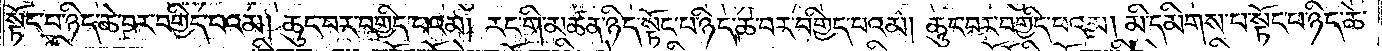སྟོང་པ་ཉིད་ཆེ་བར་བགྱིད་པའམ། ཆུང་བར་བགྱིད་པའམ། རང་གི་མཚན་ཉིད་སྟོང་པ་ཉིད་ཆེ་བར་བགྱིད་པའམ། ཆུང་བར་བགྱིད་པའམ། མི་དམིགས་པ་སྟོང་པ་ཉིད་ཆེ་
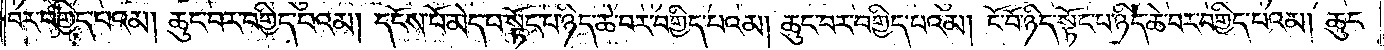བར་བགྱིད་པའམ། ཆུང་བར་བགྱིད་པའམ། དངོས་པོ་མེད་པ་སྟོང་པ་ཉིད་ཆེ་བར་བགྱིད་པའམ། ཆུང་བར་བགྱིད་པའམ། ངོ་བོ་ཉིད་སྟོང་པ་ཉིད་ཆེ་བར་བགྱིད་པའམ། ཆུང་
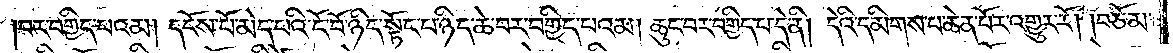བར་བགྱིད་པའམ། དངོས་པོ་མེད་པའི་ངོ་བོ་ཉིད་སྟོང་པ་ཉིད་ཆེ་བར་བགྱིད་པའམ། ཆུང་བར་བགྱིད་པ་དེ་ནི། དེའི་དམིགས་པ་ཆེན་པོར་འགྱུར་རོ། །བཅོམ་
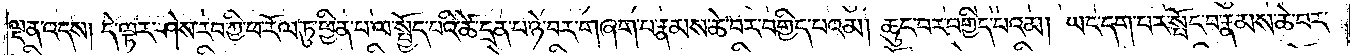ལྡན་འདས། དེ་ལྟར་ཤེས་རབ་ཀྱི་ཕ་རོལ་ཏུ་ཕྱིན་པ་ལ་སྤྱོད་པའི་ཚེ་དྲན་པ་ཉེ་བར་གཞག་པ་རྣམས་ཆེ་བར་བགྱིད་པའམ། ཆུང་བར་བགྱིད་པའམ། ཡང་དག་པར་སྤོང་བ་རྣམས་ཆེ་བར་
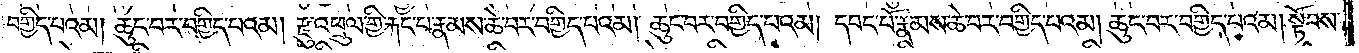བགྱིད་པའམ། ཆུང་བར་བགྱིད་པའམ། རྫུ་འཕྲུལ་གྱི་རྐང་པ་རྣམས་ཆེ་བར་བགྱིད་པའམ། ཆུང་བར་བགྱིད་པའམ། དབང་པོ་རྣམས་ཆེ་བར་བགྱིད་པའམ། ཆུང་བར་བགྱིད་པའམ། སྟོབས་
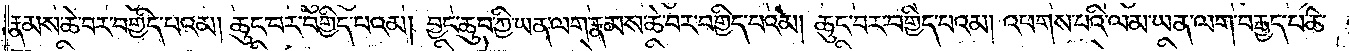རྣམས་ཆེ་བར་བགྱིད་པའམ། ཆུང་བར་བགྱིད་པའམ། བྱང་ཆུབ་ཀྱི་ཡན་ལག་རྣམས་ཆེ་བར་བགྱིད་པའམ། ཆུང་བར་བགྱིད་པའམ། འཕགས་པའི་ལམ་ཡན་ལག་བརྒྱད་པ་ཆེ་
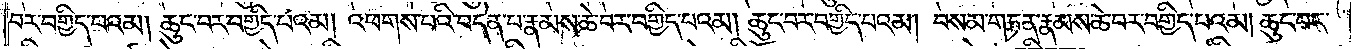བར་བགྱིད་པའམ། ཆུང་བར་བགྱིད་པའམ། འཕགས་པའི་བདེན་པ་རྣམས་ཆེ་བར་བགྱིད་པའམ། ཆུང་བར་བགྱིད་པའམ། བསམ་གཏན་རྣམས་ཆེ་བར་བགྱིད་པའམ། ཆུང་བར་
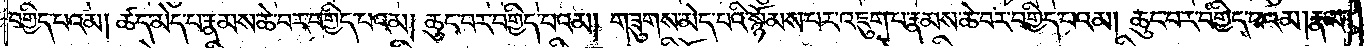བགྱིད་པའམ། ཚད་མེད་པ་རྣམས་ཆེ་བར་བགྱིད་པའམ། ཆུང་བར་བགྱིད་པའམ། གཟུགས་མེད་པའི་སྙོམས་པར་འཇུག་པ་རྣམས་ཆེ་བར་བགྱིད་པའམ། ཆུང་བར་བགྱིད་པའམ། རྣམ་
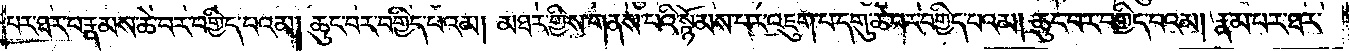པར་ཐར་པ་རྣམས་ཆེ་བར་བགྱིད་པའམ། ཆུང་བར་བགྱིད་པའམ། མཐར་གྱིས་གནས་པའི་སྙོམས་པར་འཇུག་པ་དགུ་ཆེ་བར་བགྱིད་པའམ། ཆུང་བར་བགྱིད་པའམ། རྣམ་པར་ཐར་
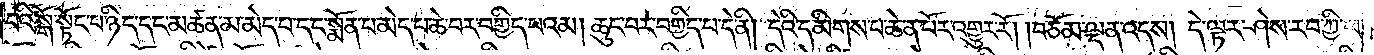པའི་སྒོ་སྟོང་པ་ཉིད་དང་མཚན་མ་མེད་པ་དང་སྨོན་པ་མེད་པ་ཆེ་བར་བགྱིད་པའམ། ཆུང་བར་བགྱིད་པ་དེ་ནི། དེའི་དམིགས་པ་ཆེན་པོར་འགྱུར་རོ། །བཅོམ་ལྡན་འདས། དེ་ལྟར་ཤེས་རབ་ཀྱི་ཕ་
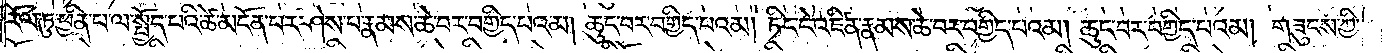རོལ་ཏུ་ཕྱིན་པ་ལ་སྤྱོད་པའི་ཚེ་མངོན་པར་ཤེས་པ་རྣམས་ཆེ་བར་བགྱིད་པའམ། ཆུང་བར་བགྱིད་པའམ། ཏིང་ངེ་འཛིན་རྣམས་ཆེ་བར་བགྱིད་པའམ། ཆུང་བར་བགྱིད་པའམ། གཟུངས་ཀྱི་
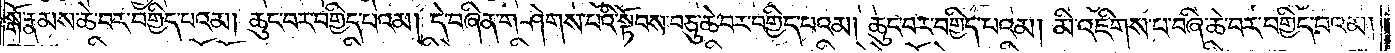སྒོ་རྣམས་ཆེ་བར་བགྱིད་པའམ། ཆུང་བར་བགྱིད་པའམ། དེ་བཞིན་གཤེགས་པའི་སྟོབས་བཅུ་ཆེ་བར་བགྱིད་པའམ། ཆུང་བར་བགྱིད་པའམ། མི་འཇིགས་པ་བཞི་ཆེ་བར་བགྱིད་པའམ།
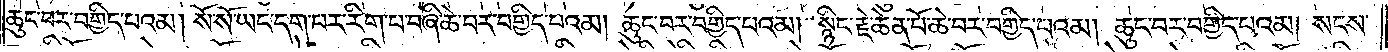ཆུང་བར་བགྱིད་པའམ། སོ་སོ་ཡང་དག་པར་རིག་པ་བཞི་ཆེ་བར་བགྱིད་པའམ། ཆུང་བར་བགྱིད་པའམ། སྙིང་རྗེ་ཆེན་པོ་ཆེ་བར་བགྱིད་པའམ། ཆུང་བར་བགྱིད་པའམ། སངས་
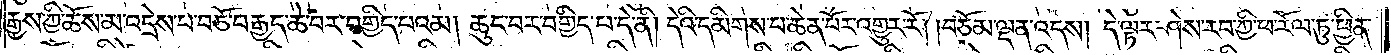རྒྱས་ཀྱི་ཆོས་མ་འདྲེས་པ་བཅོ་བརྒྱད་ཆེ་བར་བགྱིད་པའམ། ཆུང་བར་བགྱིད་པ་དེ་ནི། དེའི་དམིགས་པ་ཆེན་པོར་འགྱུར་རོ། །བཅོམ་ལྡན་འདས། དེ་ལྟར་ཤེས་རབ་ཀྱི་ཕ་རོལ་ཏུ་ཕྱིན་
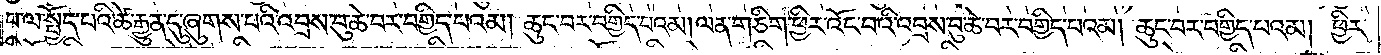པ་ལ་སྤྱོད་པའི་ཚེ་རྒྱུན་དུ་ཞུགས་པའི་འབྲས་བུ་ཆེ་བར་བགྱིད་པའམ། ཆུང་བར་བགྱིད་པའམ། ལན་གཅིག་ཕྱིར་འོང་བའི་འབྲས་བུ་ཆེ་བར་བགྱིད་པའམ། ཆུང་བར་བགྱིད་པའམ། ཕྱིར་
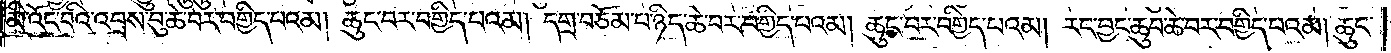མི་འོང་བའི་འབྲས་བུ་ཆེ་བར་བགྱིད་པའམ། ཆུང་བར་བགྱིད་པའམ། དགྲ་བཅོམ་པ་ཉིད་ཆེ་བར་བགྱིད་པའམ། ཆུང་བར་བགྱིད་པའམ། རང་བྱང་ཆུབ་ཆེ་བར་བགྱིད་པའམ། ཆུང་
